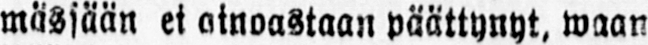mästään ei ainoastaan päättynyt, waan
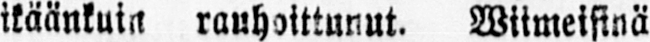ikäänkuin rauhoittunut. Wiimeisinä
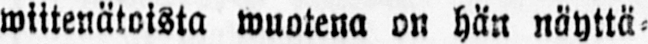wiitenätoista wuotena on hän näyttä-
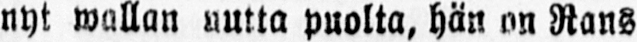nyt wallan uutta puolta, hän on Rans
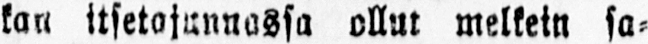kan itsetajunnassa ollut melkein sa-
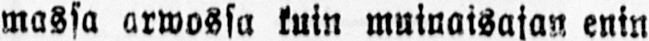massa arwossa kuin muinaisajan enin
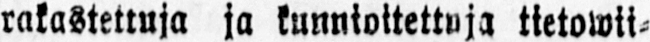rakastettuja ja kunnioitettuja tietowii-
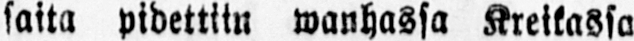saita pidettiin wanhassa Kreikassa
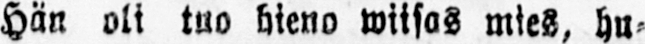Hän oli tuo hieno wiisas mies, hu-
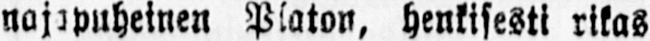najapuheinen Platon, henkisesti rikas
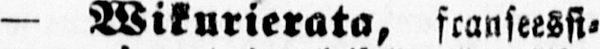— Wikurierata, franseessi-
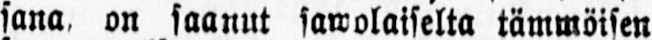sana on saanut sawolaiselta tämmöisen
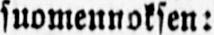suomennoksen:
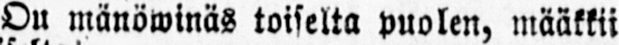On mänöwinäs toiselta puolen, määkkii
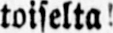toiselta
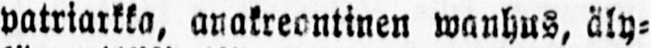patriarkka, anakreontinen wanhus, äly-
